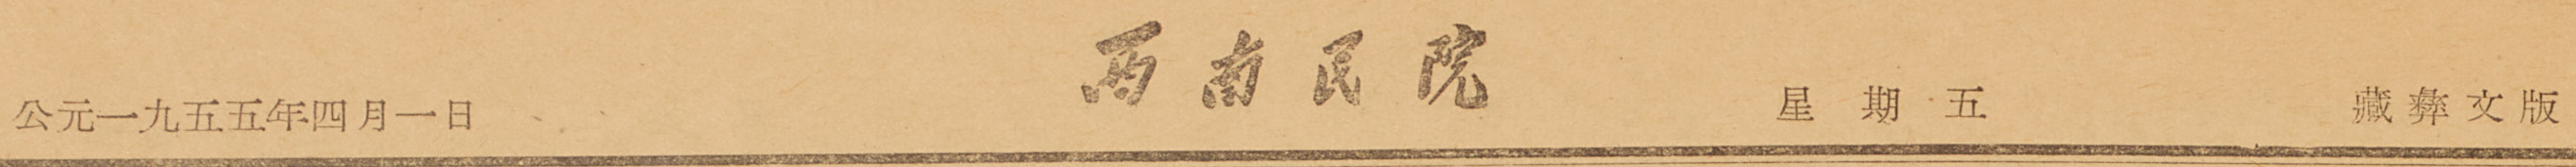公元一九五五年四月一日 西南民院 星期五 藏彝文版
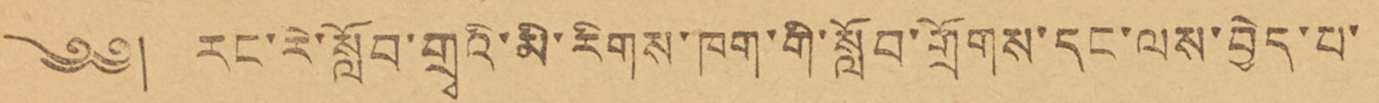༄༅། རང་རེ་སློབ་གྲྭའི་མི་རིགས་ཁག་གི་སློབ་གྲོགས་དང་ལས་བྱེད་པ་
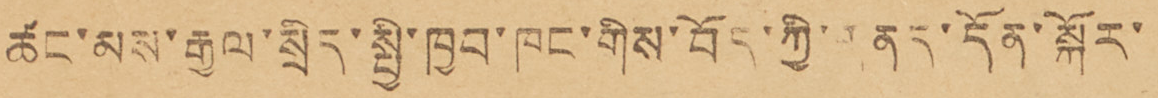ཚང་མས་རྒྱལ་སྲིད་སྤྱི་ཁྱབ་ཁང་གིས་བོད་ཀྱི་གནད་དོན་སྐོར་
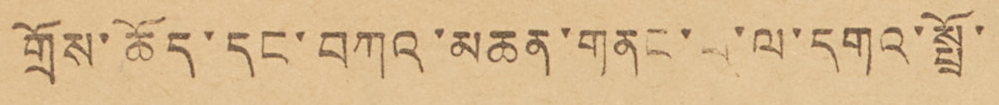གྲོས་ཆོད་དང་བཀའ་མཆན་གནང་པ་ལ་དགའ་སྤྲོ་
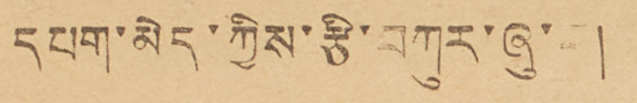དཔག་མེད་ཀྱིས་རྩི་བཀུར་ཞུ་བ།
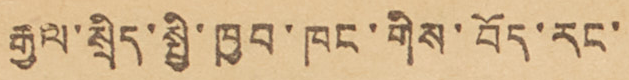རྒྱལ་སྲིད་སྤྱི་ཁྱབ་ཁང་གིས་བོད་རང་
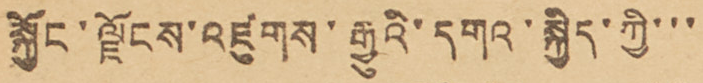སྐྱོང་ལྗོངས་འཛུགས་རྒྱུའི་དགའ་སྐྱིད་ཀྱི་་་
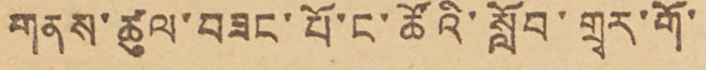གནས་ཚུལ་བཟང་པོ་ང་ཚོའི་སློབ་གྲྭར་གོ་
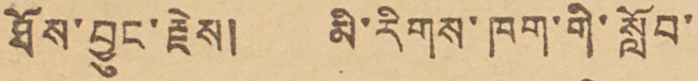ཐོས་བྱུང་རྗེས། མི་རིགས་ཁག་གི་སློབ་
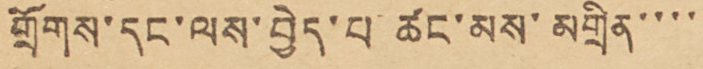གྲོགས་དང་ལས་བྱེད་པ་ཚང་མས་མགྲིན་་་་
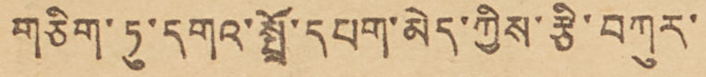གཅིག་ཏུ་དགའ་སྤྲོ་དཔག་མེད་ཀྱིས་རྩི་བཀུར་
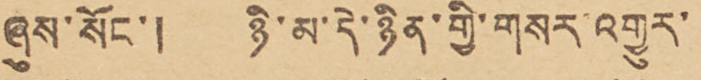ཞུས་སོང་། ཉི་མ་དེ་ཉིན་གྱི་གསར་འགྱུར་
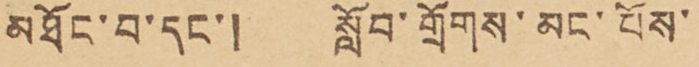མཐོང་བ་དང་། སློབ་གྲོགས་མང་པོས་
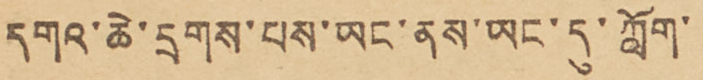དགའ་ཆེ་དྲགས་པས་ཡང་ནས་དུ་ཀློག་
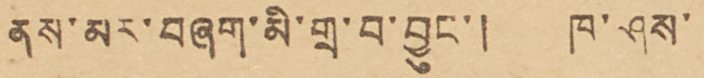ནས་མར་བཞག་མི་གྲ་བ་བྱུང་། ཁ་ཤས་
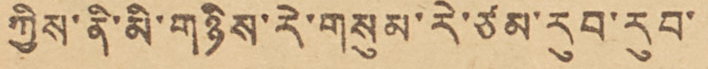ཀྱིས་ནི་མི་གཉིས་རེ་གསུམ་རེ་ཙམ་རུབ་རུབ་
